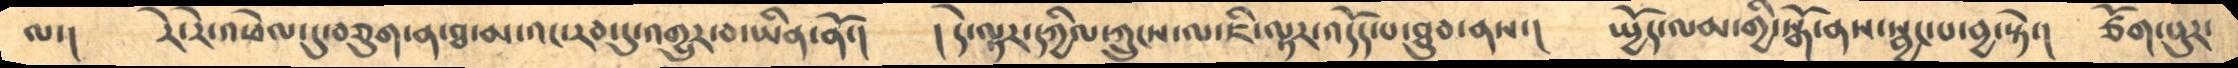ལ་།    རེ་རེ་འཕེལ་དུ་བཅུག་ན་ཐ་མ་འང་རབ་དུ་འགྱུར་བ་ཡིན་ནོ་།     །དེ་ལྟར་དཀྱིལ་ཀྲུངས་ལ་ཇི་ལྟར་འདོད་པ་ཐུབ་ནས་།   སྤྱོད་ལམ་གྱི་སྒོ་ནས་སྦྱང་པ་བྱ་སྟེ་།   ཙོག་པུར་
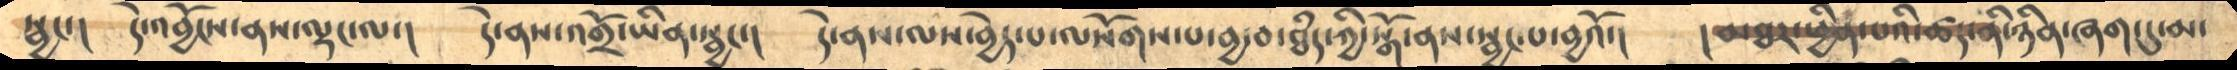སྦྱང་།      དེ་འབྱོངས་ནས་ལྡང་ལ་།      དེ་ནས་འགྲོ་ཡིན་སྦྱང་།    དེ་ནས་ལས་བྱེད་པ་ལསོགས་པ་བྱ་བ་ཐཾད་ཀྱི་སྒོ་ནས་སྦྱང་པ་བྱའོ་།    །མཐར་ཕྱིན་པའི་ཚད་ནི་ཉིན་ཞག་དུ་མ་
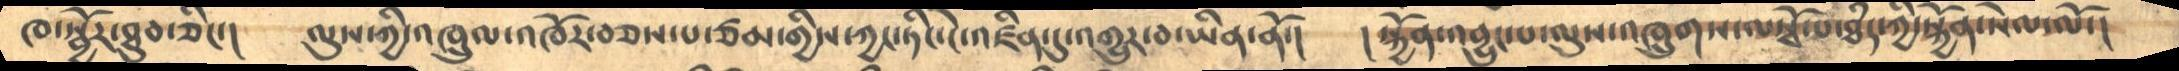ཁ་སྦྱོར་ཐུབ་ཅིང་།     ལུས་ཀྱི་འཁྲུལ་འཁོར་བཅས་པ་ཙམ་གྱིས་ཀྱང་ཏིང་ངེ་འཛིན་དུ་འགྱུར་བ་ཡིན་ནོ་།     །སྐྱོན་འབྱུང་པ་ལུས་འཁྲུགས་ལསྭོ་པ་ཐཾད་ཀྱི་སྐྱོན་སེལ་ལོ་།
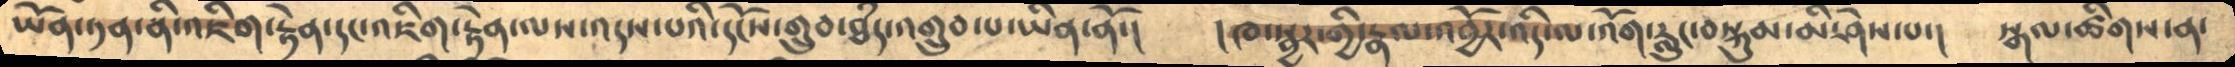ཡོན་ཏན་ནི་འཇིག་རྟེན་དང་འཇིག་རྟེན་ལས་འདས་པའི་དངོས་གྲུབ་ཐཾད་འགྲུབ་པ་ཡིན་ནོ་།     །ཁ་སྦྱར་གྱི་རྣལ་འབྱོར་འདི་ལ་འོག་རླུང་བསྐུམ་མི་ཤེས་པ་།     སྒལ་ཚིགས་ན་
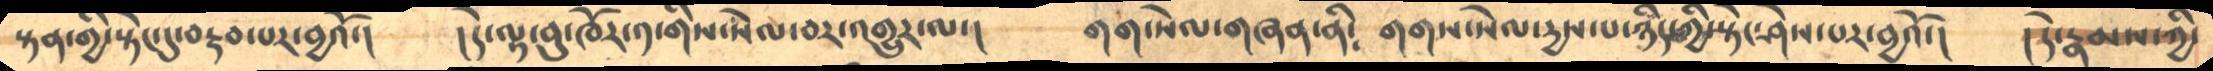སྟན་གྱི་སྟེང་དུ་བརྟབ་པར་བྱའོ་།     །དེ་ལྟ་བུ་ཁོར་༡་གིས་སེལ་བར་འགྱུར་ལ་།    གག་སེལ་གཞན་ནི༴  གགས་སེལ་དྱས་པ་ཉིད་ཀྱི་སྟེང་ཤེས་པར་བྱའོ་།    །དེ་རྣམས་ཀྱི་
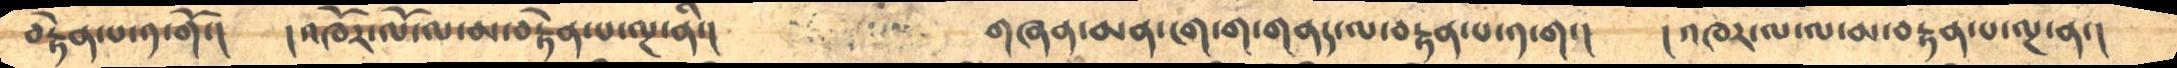བརྟེན་པ་༡་གོ་།    །འཁོར་ལོ་ལ་མ་བརྟེན་པ་ལྔ་ནི་།          གཞན་མན་ངག་ག་གནད་ལ་བརྟན་པ་༡་ག་།     །འཁར་ལ་ལ་མ་བརྟན་པ་ལྔ་ན་།
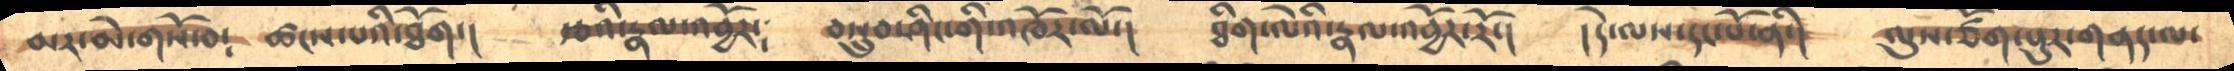མར་མེ་གསོ་བ༴     ཚངས་པའི་ཐོག་།   རྩའི་རྣལ་འབྱོར༴     བསྲུབ་ཤིང་གི་འཁོར་ལོ་།     ཐིག་ལེའི་རྣལ་འབྱོར་རོ་།     །དེ་ལས་དང་པོ་ནི་།     ལུས་ཙོག་པུར་གནད་ལ་
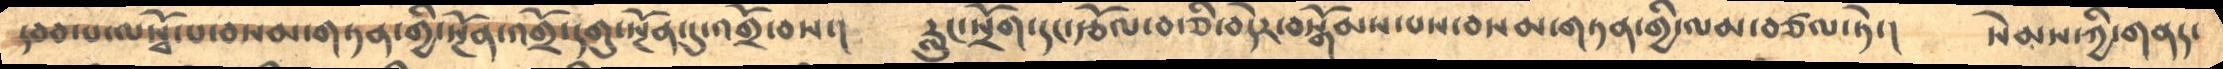དབབ་པ་ལསྭོ་པ་བསམ་གཏན་གྱི་སྔོན་འགྲོ་དགུ་སྔོན་དུ་འགྲོ་བས་།     རླུང་སྲོག་དང་རྩོལ་བ་ཅི་བདེར་བསྒོམས་པས་བསམ་གཏན་གྱི་ལམ་བཙལ་ཏེ་།    སེམས་ཀྱི་གནད་
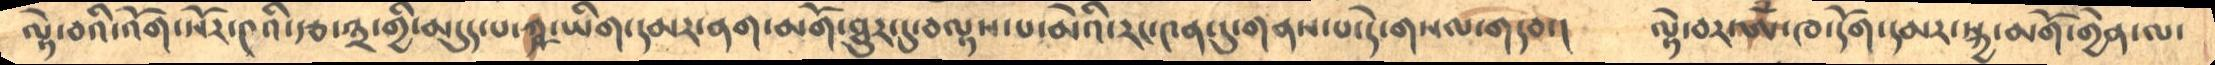ལྟེ་བའི་འོག་སོར་༤འི་རྩ་༣་གྱི་མདུད་པ་ཀྵ་ཡིག་དམར་ནག་མགོ་ཐུར་དུ་བལྟས་པ་མེའི་རང་༤ན་དུ་གནས་པ་དེ་གསལ་གདབ་།    ལྟེ་བར་ཨོཾ་ཁ་དོག་དམར་སྐྱ་མགོ་གྱེན་ལ་
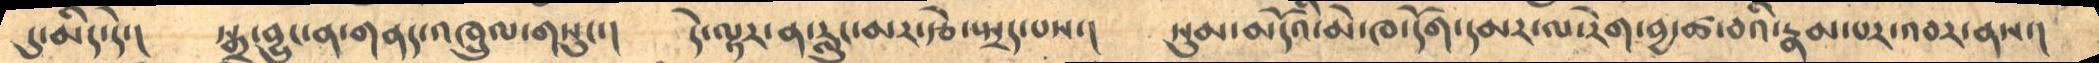དུ་མིད་དེ་།    སྒྲ་བྱུང་ན་གནད་འཁྲུལ་གསུང་།    དེ་ལྟར་ན་རླུང་མར་རྩེ་སྤྲད་པས་།     སུམ་མདོའི་མེ་ཁ་དོག་དམར་ལ་རེག་བྱ་ཚ་བའི་རྣམ་པར་འབར་ནས་།
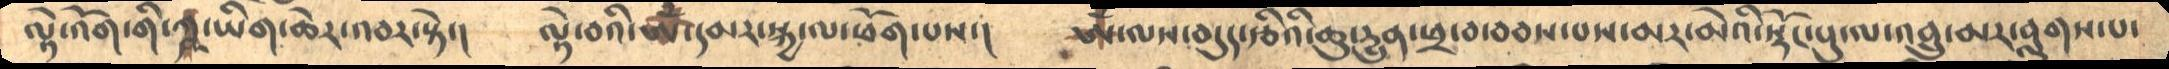ལྟེ་འོག་གི་ཀྵཾ་ཡིག་ཆེར་འབར་སྟེ་།      ལྡེ་བའི་ཨོཾ་དམར་སྐྱ་ལ་ཕོག་པས་།    ཨོཾ་ལས་བདུད་རྩིའི་ཆུ་དྱུན་ཕྲ་བ་བབས་པས་མར་མེའི་སྡོང་པུ་ལ་འབྲུ་མར་བླུགས་པ་
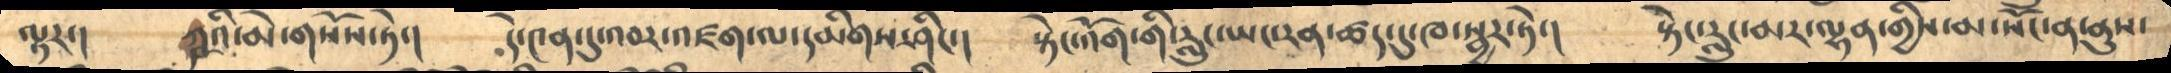ལྟར་།      ཀྵའི་མེ་གསོས་ཏེ་།    དེ་༤ན་དུ་འབར་འཛག་ལ་དམིགས་ཤིང་།    སྟེང་འོག་གི་རླུང་ཡང་རན་ཚད་དུ་ཁ་སྦྱར་ཏེ་།     སྟེང་རླུང་མར་ལྷན་གྱིས་མ་སོང་ན་ནུས་
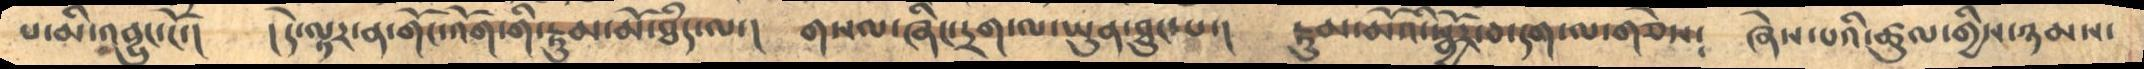པ་མི་འབྱུང་ངོ་།    །དེ་ལྡར་ན་གོང་འོག་གི་རྟུམ་མོ་ཐཾད་ལ་།    གསལ་ཞིང་དྲག་ལ་ཡུན་ཐུང་པ་།     རྟུམ་མོའི་སྦྱོར་བ་དག་ལ་གཅེས༴    ཞེས་པའི་ཚུལ་གྱིས་ཉམས་
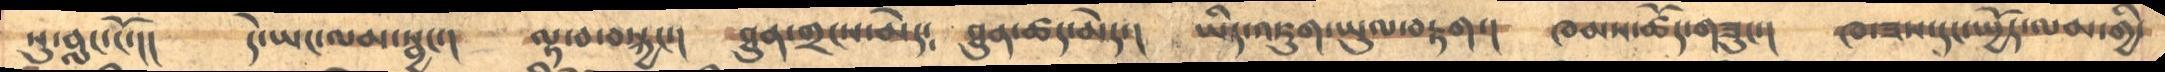སུ་བླང་ངོ་།།     དེ་ཡང་ལམ་སྦྱང་།     ལྟ་བ་བསྐྱང་།     ཐུན་གྲངས་མེད༴      ཐུན་ཚད་མེད་།    ཡིད་འཇུག་ཡུལ་བརྟག་།    ཁམས་ཚོད་གཟུང་།      ཁ་ཟས་དང་སྤྱོད་ལམ་གྱི་
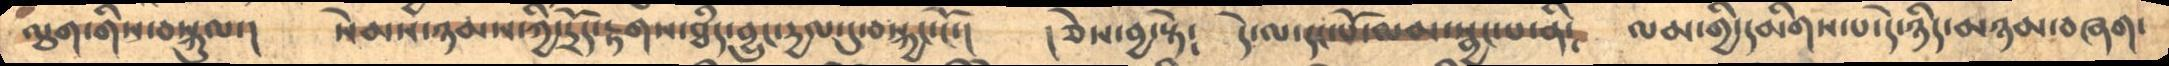ལུག་གིས་བསྐུལ་།    སེམས་ཉམས་ཀྱི་དྲོད་རྟགས་ཐཾད་བྱུང་དྱལ་དུ་བསྐྱང་ངོ་།     །ཅེས་བྱ་སྟེ༴    དེ་ལ་དང་པོ་ལམ་སྦྱང་པ་ནི༴    ལམ་གྱི་དམིགས་པ་དེ་ཉིད་མཉམ་བཞག་
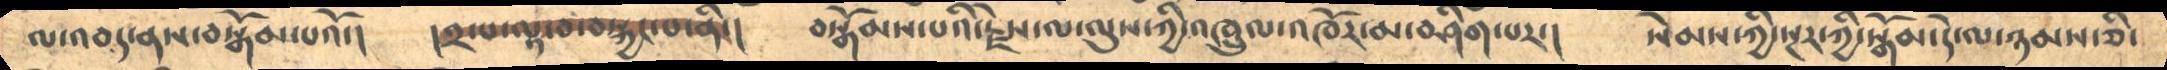ལ་འབད་ནས་བསྒོམ་པའོ་།      །༢་པ་ལྟ་བ་བསྐྱང་པ་ནི་།     བསྒོམས་པའི་རྗེས་ལ་ལུས་ཀྱི་འཁྲུལ་འཁོར་མ་བཤིག་པར་།   སེམས་ཀྱི་སྔར་གྱི་སྒོམ་དེ་ལ་ཉམས་ཅི་
